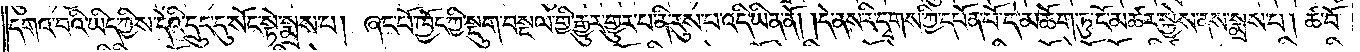དགའ་བའི་ཡིད་ཀྱིས་དེའི་དྲུང་དུ་སོང་སྟེ་སྨྲས་པ། ཞང་པོ་ཁྱོད་ཀྱི་སྡུག་བསྔལ་གྱི་རྒྱུར་གྱུར་པ་ནི་རུས་པ་འདི་ཡིན་ནོ། །དེ་ནས་རི་དྭགས་ཀྱི་དཔོན་པོ་དེ་མཆོག་ཏུ་ངོ་མཚར་སྐྱེས་ནས་སྨྲས་པ། ཚ་བོ་
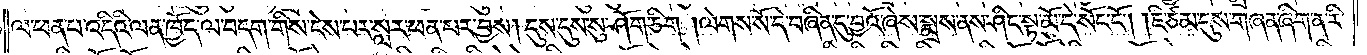ལ་ཕན་པ་འདིའི་ལན་ཁྱོད་ལ་བདག་གིས་ངེས་པར་སླར་ཕན་པར་བྱས། དུས་དུས་སུ་ཤོག་ཅིག །ལེགས་སོ་དེ་བཞིན་དུ་བྱའོ་ཞེས་སྨྲས་ནས་ཤིང་སྟ་མོ་དེ་སོང་ངོ༌། །ཇི་ཙམ་དུས་གཞན་ཞིག་ན་རི་
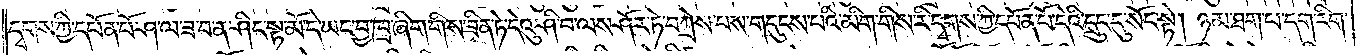དྭགས་ཀྱི་དཔོན་པོ་ཤ་ལ་ཟ་བ་ན་ཤིང་སྟ་མོ་དེ་ཡང་བྱ་ཁྲ་ཞིག་གིས་ཟིན་ཏེ་དེའུ་ཤི་བ་ལས་ཤོར་ཏེ་བཀྲེས་པས་གདུངས་པའི་མིག་གིས་རི་དྭགས་ཀྱི་དཔོན་པོ་དེའི་དྲུང་དུ་སོང་སྟེ། ཉམ་ཐག་པ་དག་རིག་
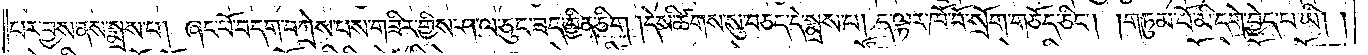པར་བྱས་ནས་སྨྲས་པ། ཞང་པོ་བདག་བཀྲེས་པས་གཟིར་གྱིས་ཤ་ལ་ཅུང་ཟད་བྱིན་ཅིག །དེས་ཚིགས་སུ་བཅད་དེ་སྨྲས་པ། ད་ལྟར་ཁོ་བོ་སྲོག་གཅོད་ཅིང༌། །གཏུམ་པོ་མི་དགེ་བྱེད་པ་ཡི། །
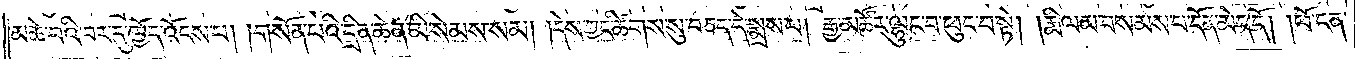མཆེ་བའི་བར་དུ་ཁྱོད་འོངས་པ། །གསོན་པའི་དྲིན་ཆེན་མི་སེམས་སམ། །དེས་ཀྱང་ཚིགས་སུ་བཅད་དེ་སྨྲས་པ། རྒྱ་མཚོར་ལྷུང་བ་ཕུང་བ་སྟེ། །རྨི་ལམ་བསམས་པ་དོན་མེད་དོ། །ཕོ་ངན་
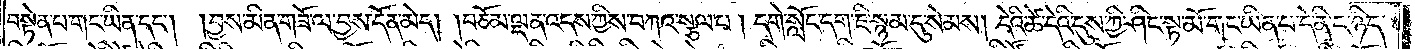བསྟེན་པ་གང་ཡིན་དང༌། །བྱས་མིན་གཟོ་ལ་བྱས་དོན་མེད། །བཅོམ་ལྡན་འདས་ཀྱིས་བཀའ་སྩལ་པ། དགེ་སློང་དག་ཇི་སྙམ་དུ་སེམས། དེའི་ཚེ་དེའི་དུས་ཀྱི་ཤིང་སྟ་མོ་གང་ཡིན་པ་དེ་ནི་ང་ཉིད་
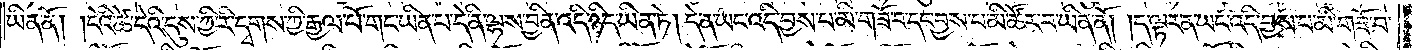ཡིན་ནོ། །དེའི་ཚེ་དེའི་དུས་ཀྱི་རི་དྭགས་ཀྱི་རྒྱལ་པོ་གང་ཡིན་པ་དེ་ནི་ལྷས་བྱིན་འདི་ཉིད་ཡིན་ཏེ། དེ་ན་ཡང་འདི་བྱས་པ་མི་གཟོ་བ་དང་བྱས་པ་མི་ཚོར་བ་ཡིན་ནོ། །ད་ལྟར་ན་ཡང་འདི་བྱས་པ་མི་གཟོ་བ་
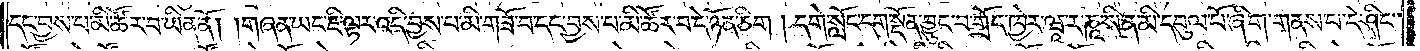དང་བྱས་པ་མི་ཚོར་བ་ཡིན་ནོ། །གཞན་ཡང་ཇི་ལྟར་འདི་བྱས་པ་མི་གཟོ་བ་དང་བྱས་པ་མི་ཚོར་བ་དེ་ཉོན་ཅིག །དགེ་སློང་དག་སྔོན་བྱུང་བ་གྲོང་ཁྱེར་ཝཱ་ར་ཎཱ་སི་ན་མི་དབུལ་པོ་ཞིག་གནས་པ་དེ་ཤིང་
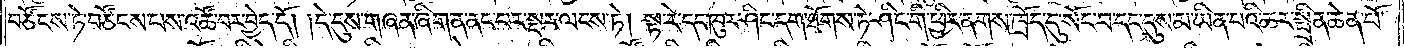བཙོངས་ཏེ་བཙོངས་པས་འཚོ་བར་བྱེད་དོ། །དེ་དུས་གཞན་ཞིག་ན་ནང་པར་སྔར་ལངས་ཏེ། སྟ་རེ་དང་ཁུར་ཤིང་དག་ཐོགས་ཏེ་ཤིང་གི་ཕྱིར་ནགས་ཁྲོད་དུ་སོང་བ་དང་དུས་མ་ཡིན་པའི་ཆར་སྤྲིན་ཆེན་པོ་
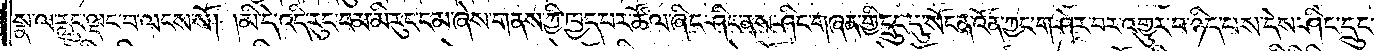སྣ་ལ་རླུང་ལྡང་བ་ལངས་སོ། །མི་དེ་འདི་རུང་ངམ་མི་རུང་ངམ་ཞེས་གནས་ཀྱི་ཁྱད་པར་ཚོལ་ཞིང་ཤིང་ནས་ཤིང་གཞན་གྱི་དྲུང་དུ་སོང་ན་འོན་ཀྱང་གཤེར་བར་འགྱུར་བ་ཉིད་པས་དེས་ཤིང་དྲུང་
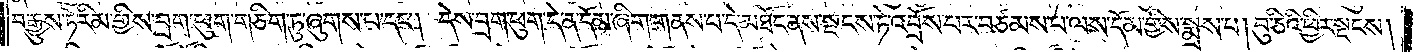བརྒྱུས་ཏེ་རིམ་གྱིས་བྲག་ཕུག་གཅིག་ཏུ་ཞུགས་པ་དང༌། དེས་བྲག་ཕུག་དེ་ན་དོམ་ཞིག་གནས་པ་དེ་མཐོང་ནས་སྔངས་ཏེ་འབྲོས་པར་བཙམས་པ་ལས་དོམ་གྱིས་སྨྲས་པ། བུ་ཅིའི་ཕྱིར་སྡངས།
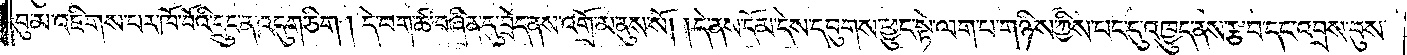བུ་མ་འཇིགས་པར་ཁོ་བོའི་དྲུང་ན་འདུག་ཅིག །དེ་བག་ཚ་བཞིན་དུ་བྲེད་ནས་འགྲོ་མ་ནུས་སོ། །དེ་ནས་དོམ་དེས་དབུགས་ཕྱུང་སྟེ་ལག་པ་གཉིས་ཀྱིས་པང་དུ་འཁྱུད་ནས་རྩ་བ་དང་འབྲས་བུས་
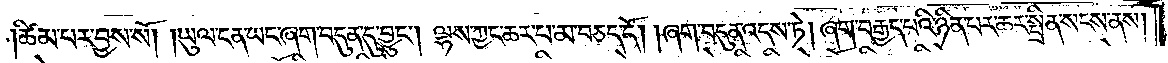།ཚིམ་པར་བྱས་སོ། །ཡུལ་ངན་ཡང་ཞག་བདུན་དུ་བྱུང༌། ལྷས་ཀྱང་ཆར་པ་མ་བཅད་དོ། །ཞག་བདུན་འདས་ཏེ། ཞག་བརྒྱད་པའི་ཉིན་པར་ཆར་སྤྲིན་སངས་ནས།
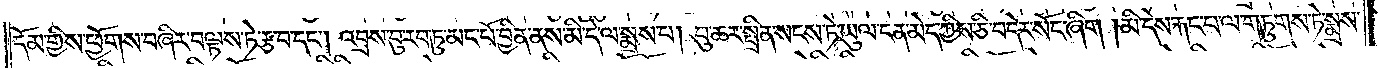དོམ་གྱིས་ཕྱོགས་བཞིར་བལྟས་ཏེ་རྩ་བ་དང༌། འབྲས་བུ་རབ་ཏུ་མང་པོ་བྱིན་ནས་མི་དེ་ལ་སྨྲས་པ། བུ་ཆར་སྤྲིན་སངས་ཏེ་ཡུལ་ངན་མེད་ཀྱིས་ཅི་བདེར་སོང་ཞིག །མི་དེས་རྐང་པ་ལ་གཏུགས་ཏེ་སྨྲས་
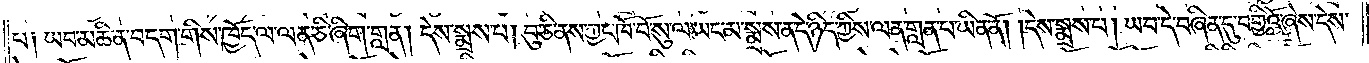པ༑ ཡབ་མཆི་ན་བདག་གིས་ཁྱོད་ལ་ལན་ཅི་ཞིག་གླན། དེས་སྨྲས་པ། བུ་ཅི་ནས་ཀྱང་ཁོ་བོ་སུ་ལ་ཡང་མ་སྨྲས་ན་དེ་ཉིད་ཀྱིས་ལན་གླན་པ་ཡིན་ནོ། །དེས་སྨྲས་པ། ཡབ་དེ་བཞིན་དུ་བགྱིའོ་ཞེས་དེས་
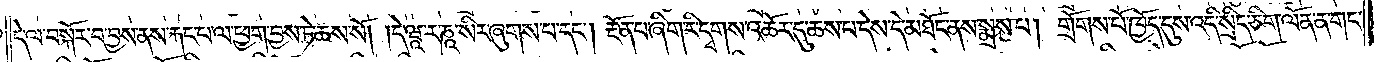དེ་ལ་བསྐོར་བ་བྱས་ནས་རྐང་པ་ལ་ཕྱག་བྱས་ཏེ་ཆས་སོ། །དེ་ཝཱ་ར་ཎཱ་སིར་ཞུགས་པ་དང༌། རྔོན་པ་ཞིག་རི་དྭགས་འཆོར་དུ་ཆས་པ་དེས་དེ་མཐོང་ནས་སྨྲས་པ། གྲོགས་པོ་ཁྱོད་དུས་འདི་སྲིད་ཅིག་ལོན་ན་གང་
